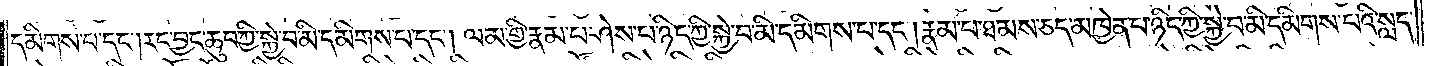དམིགས་པ་དང༌། རང་བྱང་ཆུབ་ཀྱི་སྐྱེ་བ་མི་དམིགས་པ་དང༌། ལམ་གྱི་རྣམ་པ་ཤེས་པ་ཉིད་ཀྱི་སྐྱེ་བ་མི་དམིགས་པ་དང༌། རྣམ་པ་ཐམས་ཅད་མཁྱེན་པ་ཉིད་ཀྱི་སྐྱེ་བ་མི་དམིགས་པའི་སླད་
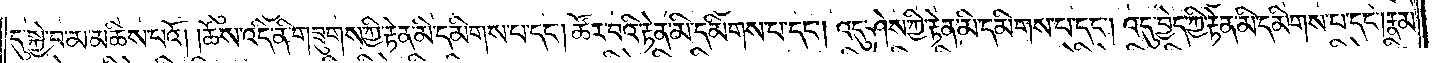དུ་སྐྱེ་བ་མ་མཆིས་པའོ། །ཆོས་འདི་ནི་གཟུགས་ཀྱི་རྟེན་མི་དམིགས་པ་དང༌། ཚོར་བའི་རྟེན་མི་དམིགས་པ་དང༌། འདུ་ཤེས་ཀྱི་རྟེན་མི་དམིགས་པ་དང༌། འདུ་བྱེད་ཀྱི་རྟེན་མི་དམིགས་པ་དང༌། རྣམ་
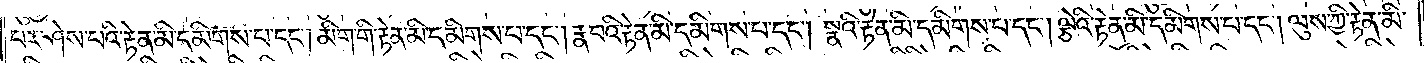པར་ཤེས་པའི་རྟེན་མི་དམིགས་པ་དང༌། མིག་གི་རྟེན་མི་དམིགས་པ་དང༌། རྣ་བའི་རྟེན་མི་དམིགས་པ་དང༌། སྣའི་རྟེན་མི་དམིགས་པ་དང༌། ལྕེའི་རྟེན་མི་དམིགས་པ་དང༌། ལུས་ཀྱི་རྟེན་མི་
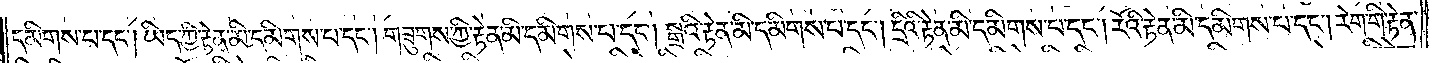དམིགས་པ་དང༌། ཡིད་ཀྱི་རྟེན་མི་དམིགས་པ་དང༌། གཟུགས་ཀྱི་རྟེན་མི་དམིགས་པ་དང༌། སྒྲའི་རྟེན་མི་དམིགས་པ་དང༌། དྲིའི་རྟེན་མི་དམིགས་པ་དང༌། རོའི་རྟེན་མི་དམིགས་པ་དང༌། རེག་གི་རྟེན་
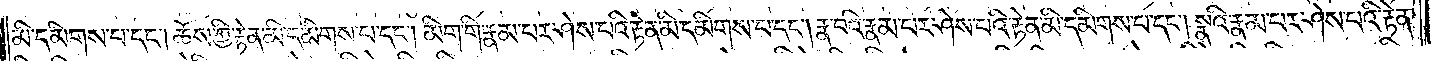མི་དམིགས་པ་དང༌། ཆོས་ཀྱི་རྟེན་མི་དམིགས་པ་དང༌། མིག་གི་རྣམ་པར་ཤེས་པའི་རྟེན་མི་དམིགས་པ་དང༌། རྣ་བའི་རྣམ་པར་ཤེས་པའི་རྟེན་མི་དམིགས་པ་དང༌། སྣའི་རྣམ་པར་ཤེས་པའི་རྟེན་
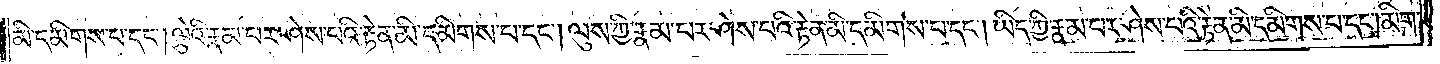མི་དམིགས་པ་དང༌། ལྕེའི་རྣམ་པར་ཤེས་པའི་རྟེན་མི་དམིགས་པ་དང༌། ལུས་ཀྱི་རྣམ་པར་ཤེས་པའི་རྟེན་མི་དམིགས་པ་དང༌། ཡིད་ཀྱི་རྣམ་པར་ཤེས་པའི་རྟེན་མི་དམིགས་པ་དང༌། མིག་
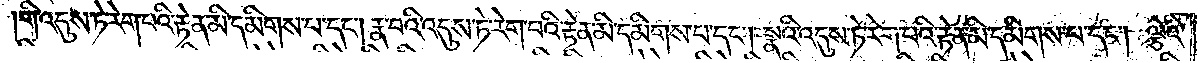གི་འདུས་ཏེ་རེག་པའི་རྟེན་མི་དམིགས་པ་དང༌། རྣ་བའི་འདུས་ཏེ་རེག་པའི་རྟེན་མི་དམིགས་པ་དང༌། སྣའི་འདུས་ཏེ་རེག་པའི་རྟེན་མི་དམིགས་པ་དང༌། ལྕེའི་
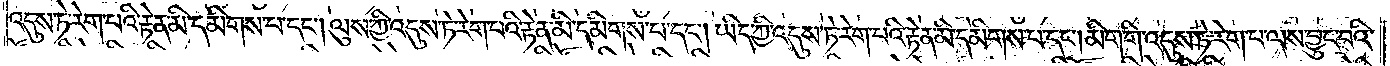འདུས་ཏེ་རེག་པའི་རྟེན་མི་དམིགས་པ་དང༌། ལུས་ཀྱི་འདུས་ཏེ་རེག་པའི་རྟེན་མི་དམིགས་པ་དང༌། ཡིད་ཀྱི་འདུས་ཏེ་རེག་པའི་རྟེན་མི་དམིགས་པ་དང༌། མིག་གི་འདུས་ཏེ་རེག་པ་ལས་བྱུང་བའི་
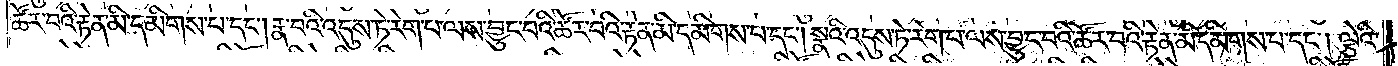ཚོར་བའི་རྟེན་མི་དམིགས་པ་དང༌། རྣ་བའི་འདུས་ཏེ་རེག་པ་ལས་བྱུང་བའི་ཚོར་བའི་རྟེན་མི་དམིགས་པ་དང༌། སྣའི་འདུས་ཏེ་རེག་པ་ལས་བྱུང་བའི་ཚོར་བའི་རྟེན་མི་དམིགས་པ་དང༌། ལྕེའི་
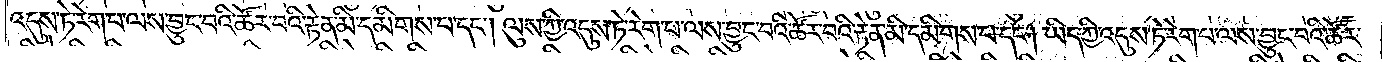འདུས་ཏེ་རེག་པ་ལས་བྱུང་བའི་ཚོར་བའི་རྟེན་མི་དམིགས་པ་དང༌། ལུས་ཀྱི་འདུས་ཏེ་རེག་པ་ལས་བྱུང་བའི་ཚོར་བའི་རྟེན་མི་དམིགས་པ་དང༌། ཡིད་ཀྱི་འདུས་ཏེ་རེག་པ་ལས་འབྱུང་བའི་ཚོར་
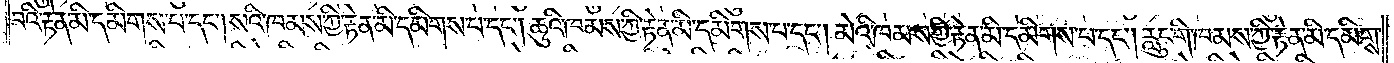བའི་རྟེན་མི་དམིགས་པ་དང༌། སའི་ཁམས་ཀྱི་རྟེན་མི་དམིགས་པ་དང༌། ཆུའི་ཁམས་ཀྱི་རྟེན་མི་དམིགས་པ་དང༌། མེའི་ཁམས་ཀྱི་རྟེན་མི་དམིགས་པ་དང༌། རླུང་གི་ཁམས་ཀྱི་རྟེན་མི་དམིགས་
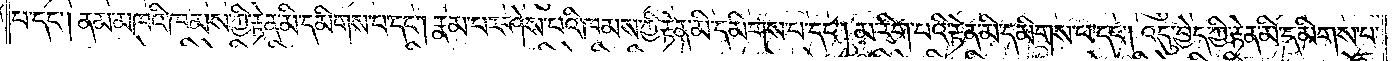པ་དང༌། ནམ་མཁའི་ཁམས་ཀྱི་རྟེན་མི་དམིགས་པ་དང༌། རྣམ་པར་ཤེས་པའི་ཁམས་ཀྱི་རྟེན་མི་དམིགས་པ་དང༌། མ་རིག་པའི་རྟེན་མི་དམིགས་པ་དང༌། འདུ་བྱེད་ཀྱི་རྟེན་མི་དམིགས་པ་
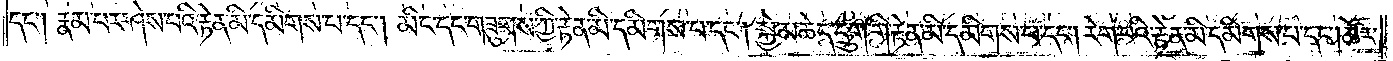དང༌། རྣམ་པར་ཤེས་པའི་རྟེན་མི་དམིགས་པ་དང༌། མིང་དང་གཟུགས་ཀྱི་རྟེན་མི་དམིགས་པ་དང༌། སྐྱེ་མཆེད་དྲུག་གི་རྟེན་མི་དམིགས་པ་དང༌། རེག་པའི་རྟེན་མི་དམིགས་པ་དང༌། ཚོར་
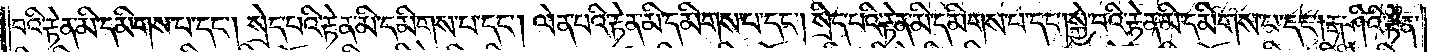བའི་རྟེན་མི་དམིགས་པ་དང༌། སྲེད་པའི་རྟེན་མི་དམིགས་པ་དང༌། ལེན་པའི་རྟེན་མི་དམིགས་པ་དང༌། སྲིད་པའི་རྟེན་མི་དམིགས་པ་དང༌། སྐྱེ་པའི་རྟེན་མི་དམིགས་པ་དང༌། རྒ་ཤིའི་རྟེན་
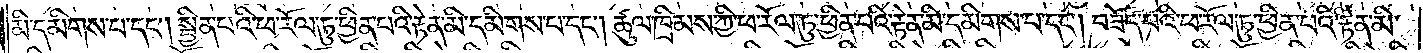མི་དམིགས་པ་དང༌། སྦྱིན་པའི་ཕ་རོལ་ཏུ་ཕྱིན་པའི་རྟེན་མི་དམིགས་པ་དང༌། ཚུལ་ཁྲིམས་ཀྱི་ཕ་རོལ་ཏུ་ཕྱིན་པའི་རྟེན་མི་དམིགས་པ་དང༌། བཟོད་པའི་ཕ་རོལ་ཏུ་ཕྱིན་པའི་རྟེན་མི་
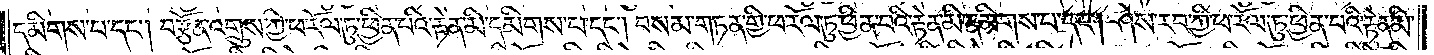དམིགས་པ་དང༌། བརྩོན་འགྲུས་ཀྱི་ཕ་རོལ་ཏུ་ཕྱིན་པའི་རྟེན་མི་དམིགས་པ་དང༌། བསམ་གཏན་གྱི་ཕ་རོལ་ཏུ་ཕྱིན་པའི་རྟེན་མི་དམིགས་པ་དང༌། ཤེས་རབ་ཀྱི་ཕ་རོལ་ཏུ་ཕྱིན་པའི་རྟེན་མི་
